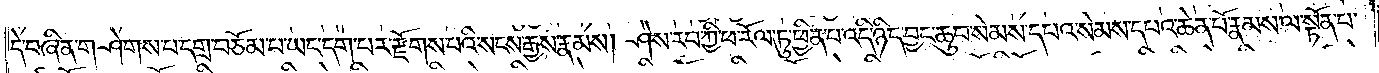དེ་བཞིན་གཤེགས་པ་དགྲ་བཅོམ་པ་ཡང་དག་པར་རྫོགས་པའི་སངས་རྒྱས་རྣམས། ཤེས་རབ་ཀྱི་ཕ་རོལ་ཏུ་ཕྱིན་པ་འདི་ཉིད་བྱང་ཆུབ་སེམས་དཔའ་སེམས་དཔའ་ཆེན་པོ་རྣམས་ལ་སྟོན་པ་
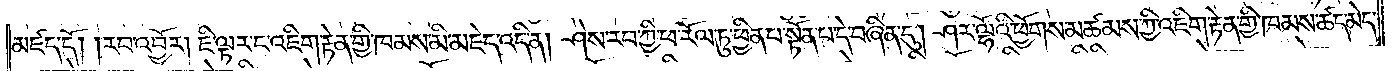མཛད་དོ། །རབ་འབྱོར། ཇི་ལྟར་ང་འཇིག་རྟེན་གྱི་ཁམས་མི་མཇེད་འདི་ན། ཤེས་རབ་ཀྱི་ཕ་རོལ་ཏུ་ཕྱིན་པ་སྟོན་པ་དེ་བཞིན་དུ། ཤར་ལྷོའི་ཕྱོགས་མཚམས་ཀྱི་འཇིག་རྟེན་གྱི་ཁམས་ཚད་མེད་
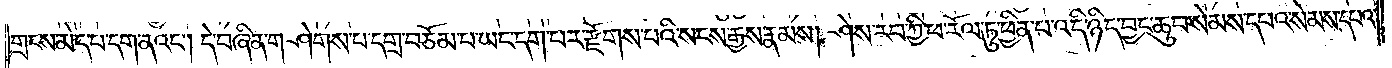གྲངས་མེད་པ་དག་ནའང༌། དེ་བཞིན་གཤེགས་པ་དགྲ་བཅོམ་པ་ཡང་དག་པར་རྫོགས་པའི་སངས་རྒྱས་རྣམས། ཤེས་རབ་ཀྱི་ཕ་རོལ་ཏུ་ཕྱིན་པ་འདི་ཉིད་བྱང་ཆུབ་སེམས་དཔའ་སེམས་དཔའ་
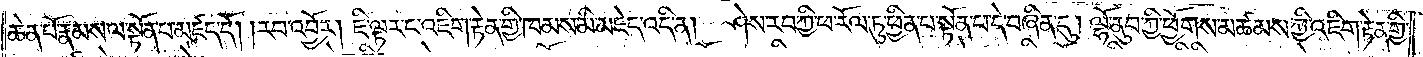ཆེན་པོ་རྣམས་ལ་སྟོན་པ་མཛད་དོ། །རབ་འབྱོར། ཇི་ལྟར་ང་འཇིག་རྟེན་གྱི་ཁམས་མི་མཇེད་འདི་ན། ཤེས་རབ་ཀྱི་ཕ་རོལ་ཏུ་ཕྱིན་པ་སྟོན་པ་དེ་བཞིན་དུ། ལྷོ་ནུབ་ཀྱི་ཕྱོགས་མཚམས་ཀྱི་འཇིག་རྟེན་གྱི་
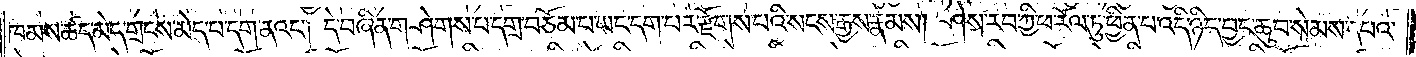ཁམས་ཚད་མེད་གྲངས་མེད་པ་དག་ནའང༌། དེ་བཞིན་གཤེགས་པ་དགྲ་བཅོམ་པ་ཡང་དག་པར་རྫོགས་པའི་སངས་རྒྱས་རྣམས། ཤེས་རབ་ཀྱི་ཕ་རོལ་ཏུ་ཕྱིན་པ་འདི་ཉིད་བྱང་ཆུབ་སེམས་དཔའ་
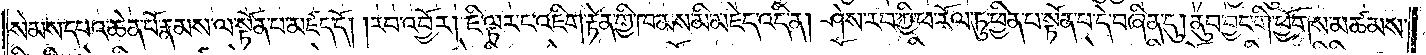སེམས་དཔའ་ཆེན་པོ་རྣམས་ལ་སྟོན་པ་མཛད་དོ། །རབ་འབྱོར། ཇི་ལྟར་ང་འཇིག་རྟེན་གྱི་ཁམས་མི་མཇེད་འདི་ན། ཤེས་རབ་ཀྱི་ཕ་རོལ་ཏུ་ཕྱིན་པ་སྟོན་པ་དེ་བཞིན་དུ། ནུབ་བྱང་གི་ཕྱོགས་མཚམས་
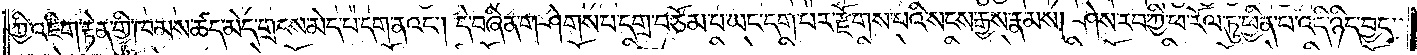ཀྱི་འཇིག་རྟེན་གྱི་ཁམས་ཚད་མེད་གྲངས་མེད་པ་དག་ནའང༌། དེ་བཞིན་གཤེགས་པ་དགྲ་བཅོམ་པ་ཡང་དག་པར་རྫོགས་པའི་སངས་རྒྱས་རྣམས། ཤེས་རབ་ཀྱི་ཕ་རོལ་ཏུ་ཕྱིན་པ་འདི་ཉིད་བྱང་
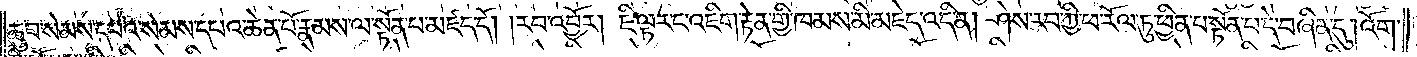ཆུབ་སེམས་དཔའ་སེམས་དཔའ་ཆེན་པོ་རྣམས་ལ་སྟོན་པ་མཛད་དོ། །རབ་འབྱོར། ཇི་ལྟར་ང་འཇིག་རྟེན་གྱི་ཁམས་མི་མཇེད་འདི་ན། ཤེས་རབ་ཀྱི་ཕ་རོལ་ཏུ་ཕྱིན་པ་སྟོན་པ་དེ་བཞིན་དུ། འོག་
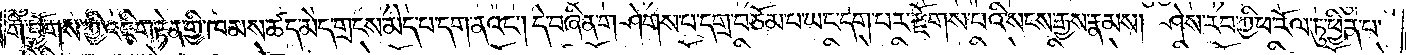གི་ཕྱོགས་ཀྱི་འཇིག་རྟེན་གྱི་ཁམས་ཚད་མེད་གྲངས་མེད་པ་དག་ནའང༌། དེ་བཞིན་གཤེགས་པ་དགྲ་བཅོམ་པ་ཡང་དག་པར་རྫོགས་པའི་སངས་རྒྱས་རྣམས། ཤེས་རབ་ཀྱི་ཕ་རོལ་ཏུ་ཕྱིན་པ་
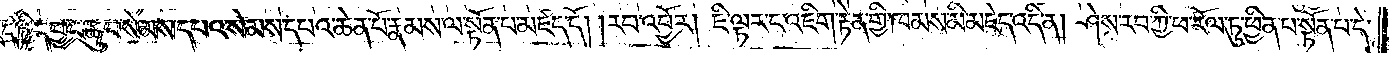འདི་ཉིད་བྱང་ཆུབ་སེམས་དཔའ་སེམས་དཔའ་ཆེན་པོ་རྣམས་ལ་སྟོན་པ་མཛད་དོ། །རབ་འབྱོར། ཇི་ལྟར་ང་འཇིག་རྟེན་གྱི་ཁམས་མི་མཇེད་འདི་ན། ཤེས་རབ་ཀྱི་ཕ་རོལ་ཏུ་ཕྱིན་པ་སྟོན་པ་དེ་
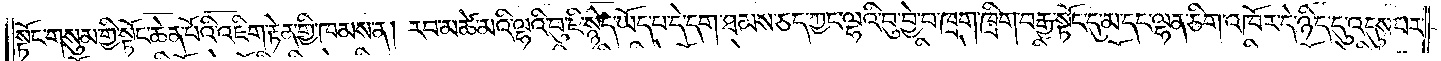སྟོང་གསུམ་གྱི་སྟོང་ཆེན་པོའི་འཇིག་རྟེན་གྱི་ཁམས་ན། རབ་མཚེ་མའི་ལྷའི་བུ་ཇི་སྙེད་ཡོད་པ་དེ་དག་ཐམས་ཅད་ཀྱང་ལྷའི་བུ་བྱེ་བ་ཁྲག་ཁྲིག་བརྒྱ་སྟོང་དུ་མ་དང་ལྷན་ཅིག་འཁོར་དེ་ཉིད་དུ་འདུས་པར་
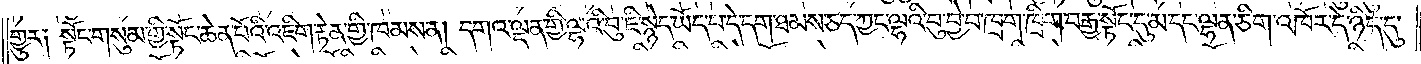གྱུར༏ སྟོང་གསུམ་གྱི་སྟོང་ཆེན་པོའི་འཇིག་རྟེན་གྱི་ཁམས་ན། དགའ་ལྡན་གྱི་ལྷའི་བུ་ཇི་སྙེད་ཡོད་པ་དེ་དག་ཐམས་ཅད་ཀྱང་ལྷའི་བུ་བྱེ་བ་ཁྲག་ཁྲིག་བརྒྱ་སྟོང་དུ་མ་དང་ལྷན་ཅིག་འཁོར་དེ་ཉིད་དུ་
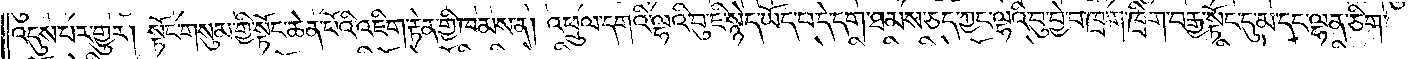འདུས་པར་གྱུར། སྟོང་གསུམ་གྱི་སྟོང་ཆེན་པོའི་འཇིག་རྟེན་གྱི་ཁམས་ན། འཕྲུལ་དགའི་ལྷའི་བུ་ཇི་སྙེད་ཡོད་པ་དེ་དག་ཐམས་ཅད་ཀྱང་ལྷའི་བུ་བྱེ་བ་ཁྲག་ཁྲིག་བརྒྱ་སྟོང་དུ་མ་དང་ལྷན་ཅིག་
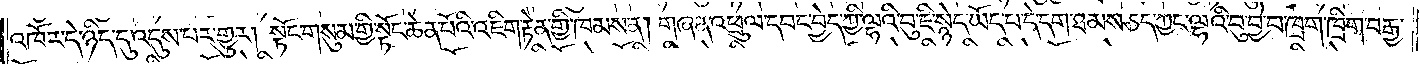འཁོར་དེ་ཉིད་དུ་འདུས་པར་གྱུར། སྟོང་གསུམ་གྱི་སྟོང་ཆེན་པོའི་འཇིག་རྟེན་གྱི་ཁམས་ན། གཞན་འཕྲུལ་དབང་བྱེད་ཀྱི་ལྷའི་བུ་ཇི་སྙེད་ཡོད་པ་དེ་དག་ཐམས་ཅད་ཀྱང་ལྷའི་བུ་བྱེ་བ་ཁྲག་ཁྲིག་བརྒྱ་
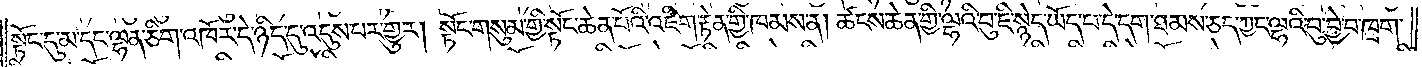སྟོང་དུ་མ་དང་ལྷན་ཅིག་འཁོར་དེ་ཉིད་དུ་འདུས་པར་གྱུར། སྟོང་གསུམ་གྱི་སྟོང་ཆེན་པོའི་འཇིག་རྟེན་གྱི་ཁམས་ན། ཚངས་ཆེན་གྱི་ལྷའི་བུ་ཇི་སྙེད་ཡོད་པ་དེ་དག་ཐམས་ཅད་ཀྱང་ལྷའི་བུ་བྱེ་བ་ཁྲག་
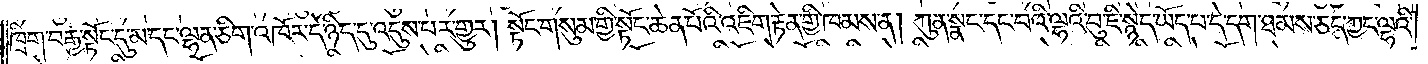ཁྲིག་བརྒྱ་སྟོང་དུ་མ་དང་ལྷན་ཅིག་འཁོར་དེ་ཉིད་དུ་འདུས་པར་གྱུར། སྟོང་གསུམ་གྱི་སྟོང་ཆེན་པོའི་འཇིག་རྟེན་གྱི་ཁམས་ན། ཀུན་སྣང་དང་བའི་ལྷའི་བུ་ཇི་སྙེད་ཡོད་པ་དེ་དག་ཐམས་ཅད་ཀྱང་ལྷའི་
